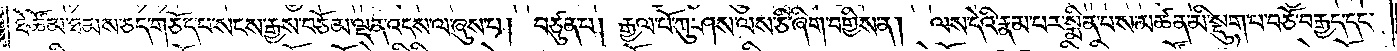ཐེ་ཚོམ་ཐམས་ཅད་གཅོད་པ་སངས་རྒྱས་བཅོམ་ལྡན་འདས་ལ་ཞུས་པ། བཙུན་པ། རྒྱལ་པོ་ཀུ་ཤས་ལས་ཅི་ཞིག་བགྱིས་ན། ལས་དེའི་རྣམ་པར་སྨིན་པས་མཚན་མི་སྡུག་པ་བཅོ་བརྒྱད་དང་
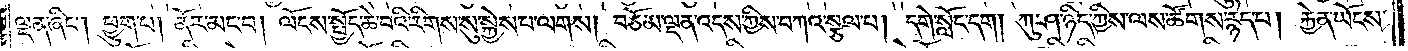ལྡན་ཞིང༌། ཕྱུག་པ། ནོར་མང་བ། ལོངས་སྤྱོད་ཆེ་བའི་རིགས་སུ་སྐྱེས་པ་ལགས། བཅོམ་ལྡན་འདས་ཀྱིས་བཀའ་སྩལ་པ། དགེ་སློང་དག །ཀུ་ཤ་ཉིད་ཀྱིས་ལས་ཚོགས་རྙེད་པ། རྐྱེན་ཡོངས་
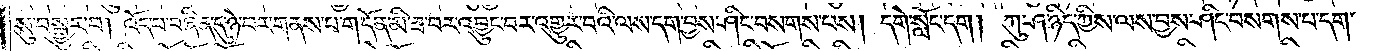སུ་བསྒྱུར་བ། འོད་པ་བཞིན་དུ་ཉེ་བར་གནས་པ་གདོན་མི་ཟ་བར་འབྱུང་བར་འགྱུར་བའི་ལས་དག་བྱས་ཤིང་བསགས་པས། དགེ་སློང་དག། ཀུ་ཤ་ཉིད་ཀྱིས་ལས་བྱས་ཤིང་བསགས་པ་དག་
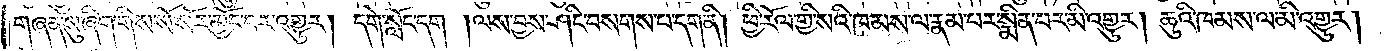གཞན་སུ་ཞིག་གིས་སོ་སོར་མྱོང་བར་འགྱུར། དགེ་སློང་དག །ལས་བྱས་ཤིང་བསགས་པ་དག་ནི། ཕྱི་རོལ་གྱི་སའི་ཁམས་ལ་རྣམ་པར་སྨིན་པར་མི་འགྱུར། ཆུའི་ཁམས་ལ་མི་འགྱུར།
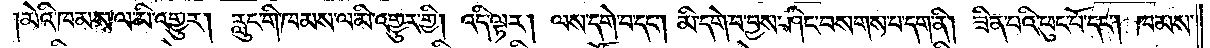མེའི་ཁམས་ལ་མི་འགྱུར། རླུང་གི་ཁམས་ལ་མི་འགྱུར་གྱི། འདི་ལྟར། ལས་དགེ་བ་དང༌། མི་དགེ་བ་བྱས་ཤིང་བསགས་པ་དག་ནི། ཟིན་པའི་ཕུང་པོ་དང༌། ཁམས་
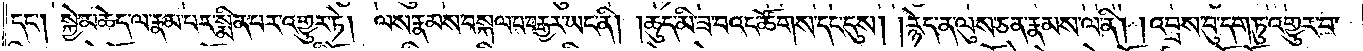དང༌། སྐྱེ་མཆེད་ལ་རྣམ་པར་སྨིན་པར་འགྱུར་ཏེ། ལས་རྣམས་བསྐལ་པ་བརྒྱར་ཡང་ནི། །ཆུད་མི་ཟ་བའང་ཚོགས་དང་དུས། །རྙེད་ན་ལུས་ཅན་རྣམས་ལ་ནི། །འབྲས་བུ་དག་ཏུ་འགྱུར་བ་
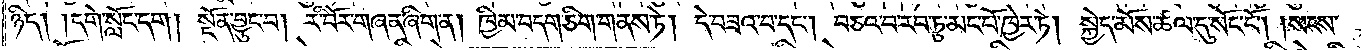ཉིད། །དགེ་སློང་དག །སྔོན་བྱུང་བ། རི་བོར་གཞན་ཞིག་ན། ཁྱིམ་བདག་ཅིག་གནས་ཏེ། དེ་བཟའ་བ་དང༌། བཅའ་བ་རབ་ཏུ་མང་པོ་ཁྱེར་ཏེ། སྐྱེད་མོས་ཚལ་དུ་སོང་ངོ༌། །སངས་
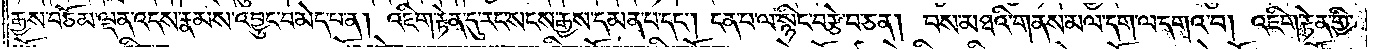རྒྱས་བཅོམ་ལྡན་འདས་རྣམས་འབྱུང་བ་མེད་པ་ན། འཇིག་རྟེན་དུ་རང་སངས་རྒྱས་དམན་པ་དང༌། ངན་པ་ལ་སྙིང་བརྩེ་བ་ཅན། བས་མཐའི་གནས་མལ་དག་ལ་དགའ་བ། འཇིག་རྟེན་གྱི་
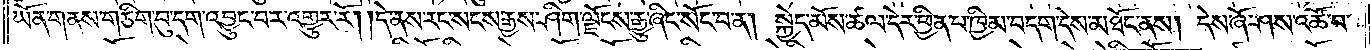ཡོན་གནས་གཅིག་བུ་དག་འབྱུང་བར་འགྱུར་རོ། །དེ་ནས་རང་སངས་རྒྱས་ཤིག་ལྗོངས་རྒྱུ་ཞིང་སོང་བ་ན། སྐྱེད་མོས་ཚལ་དེར་ཕྱིན་པ་ཁྱིམ་བདག་དེས་མཐོང་ནས། དེ་ཞོ་ཤས་འཚོ་བ་
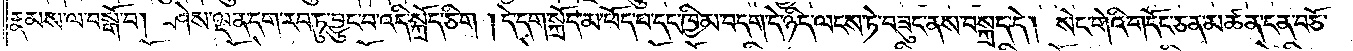རྣམས་ལ་བསྒོ་བ། ཤེས་ལྡན་དག་རབ་ཏུ་བྱུང་བ་འདི་སྐྲོད་ཅིག །དེ་དག་སྐྲོད་མ་ཕོད་པ་དང་ཁྱིམ་བདག་དེ་ཉིད་ལངས་ཏེ་བཟུང་ནས་བསྐྲད་དེ། སེང་གེའི་གདོང་ཅན་མཚན་ངན་བཅོམ་
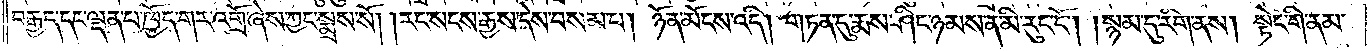བརྒྱད་དང་ལྡན་པ་ཁྱོད་གར་འགྲོ་ཞེས་ཀྱང་སྨྲས་སོ། །རང་སངས་རྒྱས་དེས་བསམ་པ། ཉོན་མོངས་འདི། གཏན་དུ་རྨས་ཤིང་ཉམས་ན་མི་རུང་ངོ༌། །སྙམ་དུ་རིག་ནས། སྟེང་གི་ནམ་
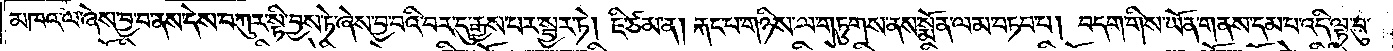མཁའ་ལ་ཞེས་བྱ་བ་ནས་དེས་བཀུར་སྟི་བྱས་ཏེ་ཞེས་བྱ་བའི་བར་དུ་རྒྱས་པར་སྦྱར་ཏེ། ཇི་ཙམ་ན། རྐང་པ་གཉིས་ལ་གཏུགས་ནས་སྨོན་ལམ་བཏབ་པ། བདག་གིས་ཡོན་གནས་དམ་པ་འདི་ལྟ་བུ་
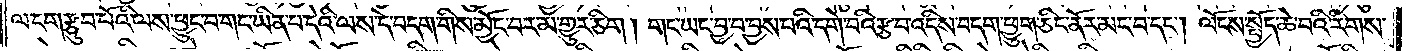ལ་ངག་རྩུབ་པོའི་ལས་ཕྱུང་བ་གང་ཡིན་པ་དེའི་ལས་དེ་བདག་གིས་མྱོང་བར་མ་གྱུར་ཅིག །གང་ཡང་བྱ་བ་བྱས་པའི་དགེ་བའི་རྩ་བ་འདིས་བདག་ཕྱུག་ཅིང་ནོར་མང་བ་དང༌། ལོངས་སྤྱོད་ཆེ་བའི་རིགས་
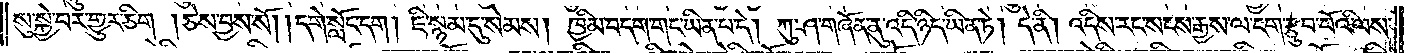སུ་སྐྱེ་བར་གྱུར་ཅིག །ཅེས་བྱས་སོ། །དགེ་སློང་དག །ཇི་སྙམ་དུ་སེམས། ཁྱིམ་བདག་གང་ཡིན་པ་དེ། ཀུ་ཤ་གཞོན་ནུ་འདི་ཉིད་ཡིན་ཏེ། དེ་ནི། འདིས་རང་སངས་རྒྱས་ལ་ངག་རྩུབ་པོའི་ལས་
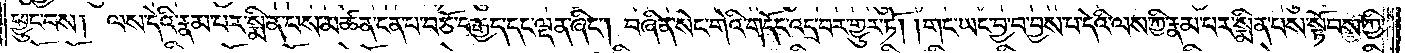ཕྱུང་བས། ལས་དེའི་རྣམ་པར་སྨིན་པས་མཚན་ངན་པ་བཅོ་བརྒྱད་དང་ལྡན་ཞིང༌། བཞིན་སེང་གེའི་གདོང་འདྲ་བར་གྱུར་ཏོ། །གང་ཡང་བྱ་བ་བྱས་པ་དེའི་ལས་ཀྱི་རྣམ་པར་སྨིན་པས་སྟོབས་ཀྱི་
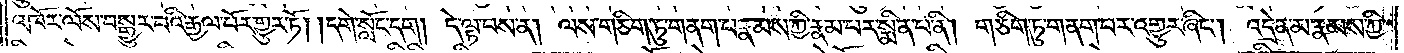འཁོར་ལོས་བསྒྱུར་བའི་རྒྱལ་པོར་གྱུར་ཏོ། །དགེ་སློང་དག །དེ་ལྟ་བས་ན། ལས་གཅིག་ཏུ་གནག་པ་རྣམས་ཀྱི་རྣམ་པར་སྨིན་པ་ནི། གཅིག་ཏུ་གནག་པར་འགྱུར་ཞིང༌། འདྲེན་མ་རྣམས་ཀྱི་
